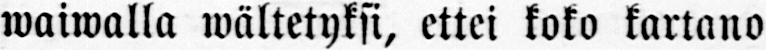waiwalla wältetyksi, ettei koko kartano
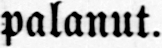palanut.
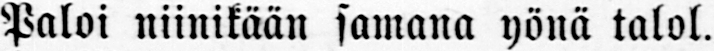Paloi niinikään samana yönä talol.
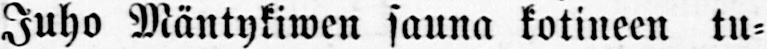Juho Mäntykiwen sauna kotineen tu-
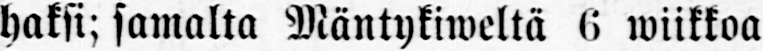haksi; samalta Mäntykiweltä 6 wiikkoa
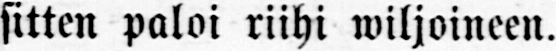sitten paloi riihi wiljoineen.
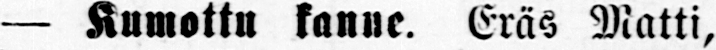— Kumottu kanne. Eräs Matti,
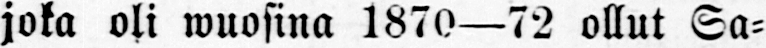joka oli wuosina 1870 —72 ollut Sa-
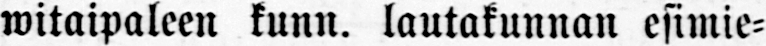witaipaleen kunn. lautakunnan esimie-
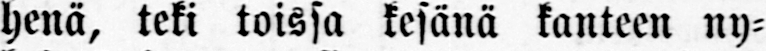henä, teki toissa kesänä kanteen ny-
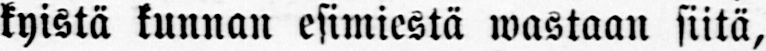kyistä kunnan esimiestä wastaan siitä,
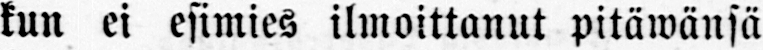kun ei esimies ilmoittanut pitäwänsä
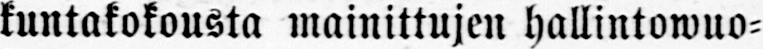kuntakokousta mainittujen hallintowuo-
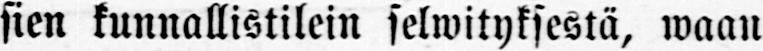sien kunnallistilein selwityksestä, waan
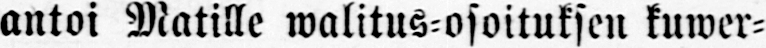antoi Matille walitus-osoituksen kuwer-
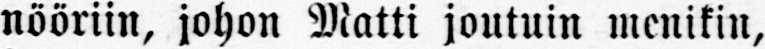nööriin, johon Matti joutuin menikin,
